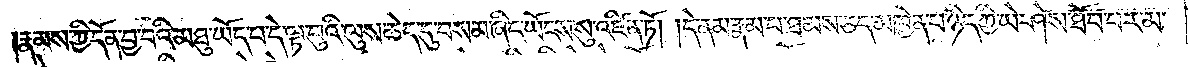རྣམས་ཀྱི་དོན་བྱ་བའི་མཐུ་ཡོད་པ་དེ་ལྟ་བུའི་ལུས་ཆེད་དུ་བསམ་ཤིང་ཡོངས་སུ་འཛིན་ཏོ། །དེ་ནམ་རྣམ་པ་ཐམས་ཅད་མཁྱེན་པ་ཉིད་ཀྱི་ཡེ་ཤེས་ཐོབ་པར་མ་
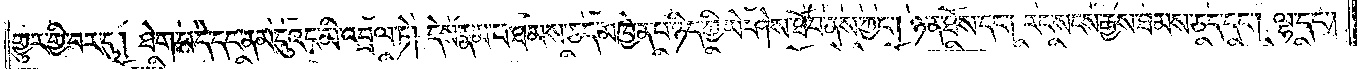གྱུར་གྱི་བར་དུ། ཐེག་པ་དེ་དང་ནམ་དུའང་མི་འབྲལ་ཏེ། དེས་རྣམ་པ་ཐམས་ཅད་མཁྱེན་པ་ཉིད་ཀྱི་ཡེ་ཤེས་ཐོབ་ནས་ཀྱང༌། ཉན་ཐོས་དང༌། རང་སངས་རྒྱས་ཐམས་ཅད་དང༌། ལྷ་དང༌།
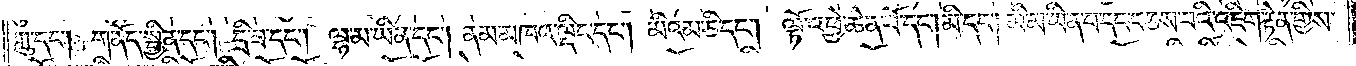ཀླུ་དང༌། གནོད་སྦྱིན་དང༌། དྲི་ཟ་དང༌། ལྷ་མ་ཡིན་དང༌། ནམ་མཁའ་ལྡིང་དང༌། མི་འམ་ཅི་དང༌། ལྟོ་འཕྱེ་ཆེན་པོ་དང༌། མི་དང༌། མི་མ་ཡིན་པ་དང་བཅས་པའི་འཇིག་རྟེན་གྱིས་
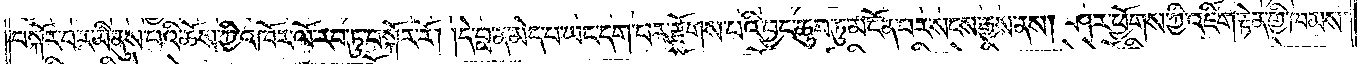བསྐོར་བར་མི་ནུས་པའི་ཆོས་ཀྱི་འཁོར་ལོ་རབ་ཏུ་བསྐོར་རོ། །དེ་བླ་ན་མེད་པ་ཡང་དག་པར་རྫོགས་པའི་བྱང་ཆུབ་ཏུ་མངོན་པར་སངས་རྒྱས་ནས། ཤར་ཕྱོགས་ཀྱི་འཇིག་རྟེན་གྱི་ཁམས་
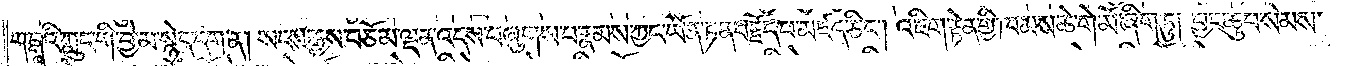གངྒཱའི་ཀླུང་གི་བྱེ་མ་སྙེད་དག་ན། སངས་རྒྱས་བཅོམ་ལྡན་འདས་བཞུགས་པ་རྣམས་ཀྱང་ཡོན་ཏན་བརྗེད་པ་མཛད་ཅིང༌། འཇིག་རྟེན་གྱི་ཁམས་ཆེ་གེ་མོ་ཞིག་ཏུ། བྱང་ཆུབ་སེམས་
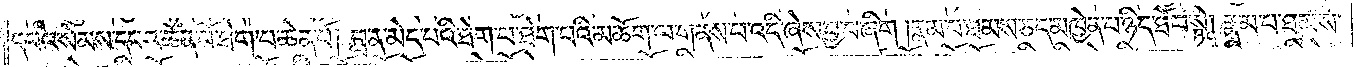དཔའ་སེམས་དཔའ་ཆེན་པོ་ཐེག་པ་ཆེན་པོ། བླ་ན་མེད་པའི་ཐེག་པ་ཐེག་པའི་མཆོག་ལ་གནས་པ་འདི་ཞེས་བྱ་བ་ཞིག །རྣམ་པ་ཐམས་ཅད་མཁྱེན་པ་ཉིད་ཐོབ་སྟེ། རྣམ་པ་ཐམས་
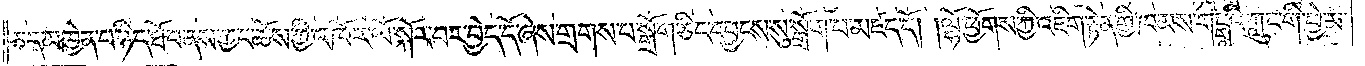ཅད་མཁྱེན་པ་ཉིད་ཐོབ་ནས་ཀྱང་ཆོས་ཀྱི་འཁོར་ལོ་སྐོར་བར་བྱེད་དོ་ཞེས་གྲགས་པ་སྒྲོག་ཅིང་དབྱངས་སུ་སྒྲོག་པ་མཛད་དོ། །ལྷོ་ཕྱོགས་ཀྱི་འཇིག་རྟེན་གྱི་ཁམས་གངྒཱའི་ཀླུང་གི་བྱེ་མ་
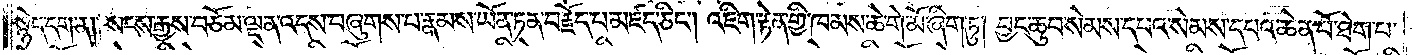སྙེད་དག་ན། སངས་རྒྱས་བཅོམ་ལྡན་འདས་བཞུགས་པ་རྣམས་ཡོན་ཏན་བརྗོད་པ་མཛད་ཅིང༌། འཇིག་རྟེན་གྱི་ཁམས་ཆེ་གེ་མོ་ཞིག་ཏུ། བྱང་ཆུབ་སེམས་དཔའ་སེམས་དཔའ་ཆེན་པོ་ཐེག་པ་
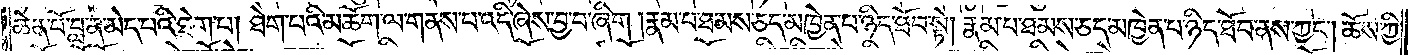ཆེན་པོ་བླ་ན་མེད་པའི་ཐེག་པ། ཐེག་པའི་མཆོག་ལ་གནས་པ་འདི་ཞེས་བྱ་བ་ཞིག །རྣམ་པ་ཐམས་ཅད་མཁྱེན་པ་ཉིད་ཐོབ་སྟེ། རྣམ་པ་ཐམས་ཅད་མཁྱེན་པ་ཉིད་ཐོབ་ནས་ཀྱང༌། ཆོས་ཀྱི་
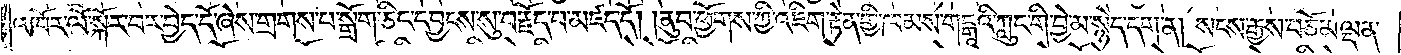འཁོར་ལོ་སྐོར་བར་བྱེད་དོ་ཞེས་གྲགས་པ་སྒྲོག་ཅིང་དབྱངས་སུ་བརྗོད་པ་མཛད་དོ། །ནུབ་ཕྱོགས་ཀྱི་འཇིག་རྟེན་གྱི་ཁམས་གངྒཱའི་ཀླུང་གི་བྱེ་མ་སྙེད་དག་ན། སངས་རྒྱས་བཅོམ་ལྡན་
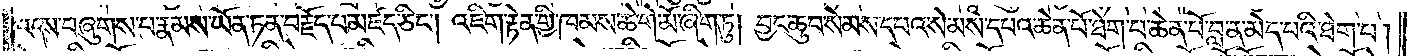འདས་བཞུགས་པ་རྣམས་ཡོན་ཏན་བརྗོད་པ་མཛད་ཅིང༌། འཇིག་རྟེན་གྱི་ཁམས་ཆེ་གེ་མོ་ཞིག་ཏུ། བྱང་ཆུབ་སེམས་དཔའ་སེམས་དཔའ་ཆེན་པོ་ཐེག་པ་ཆེན་པོ་བླ་ན་མེད་པའི་ཐེག་པ།
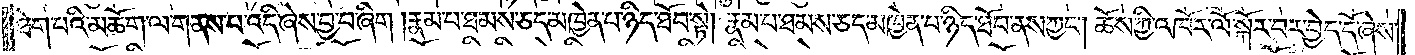ཐེག་པའི་མཆོག་ལ་གནས་པ་འདི་ཞེས་བྱ་བ་ཞིག །རྣམ་པ་ཐམས་ཅད་མཁྱེན་པ་ཉིད་ཐོབ་སྟེ། རྣམ་པ་ཐམས་ཅད་མཁྱེན་པ་ཉིད་ཐོབ་ནས་ཀྱང༌། ཆོས་ཀྱི་འཁོར་ལོ་བསྐོར་བར་བྱེད་དོ་ཞེས་
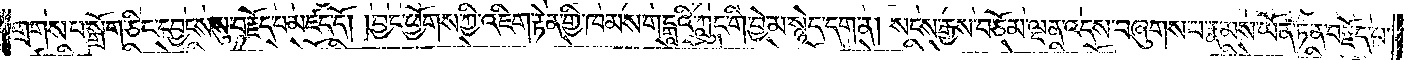གྲགས་པ་སྒྲོག་ཅིང་དབྱངས་སུ་བརྗོད་པ་མཛད་དོ། །བྱང་ཕྱོགས་ཀྱི་འཇིག་རྟེན་གྱི་ཁམས་གངྒཱའི་ཀླུང་གི་བྱེ་མ་སྙེད་དག་ན། སངས་རྒྱས་བཅོམ་ལྡན་འདས་བཞུགས་པ་རྣམས་ཡོན་ཏན་བརྗོད་པ་
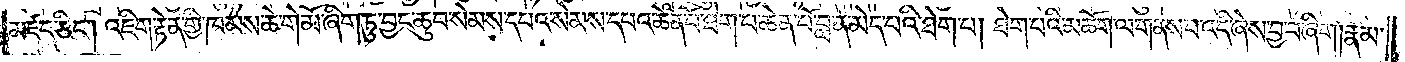མཛད་ཅིང༌། འཇིག་རྟེན་གྱི་ཁམས་ཆེ་གེ་མོ་ཞིག་ཏུ་བྱང་ཆུབ་སེམས་དཔའ་སེམས་དཔའ་ཆེན་པོ་ཐེག་པ་ཆེན་པོ་བླ་ན་མེད་པའི་ཐེག་པ། ཐེག་པའི་མཆོག་ལ་གནས་པ་འདི་ཞེས་བྱ་བ་ཞིག །རྣམ་
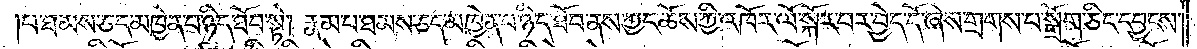པ་ཐམས་ཅད་མཁྱེན་པ་ཉིད་ཐོབ་སྟེ། རྣམ་པ་ཐམས་ཅད་མཁྱེན་པ་ཉིད་ཐོབ་ནས་ཀྱང་ཆོས་ཀྱི་འཁོར་ལོ་བསྐོར་བར་བྱེད་དོ་ཞེས་གྲགས་པ་སྒྲོག་ཅིང་དབྱངས་
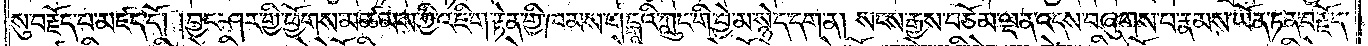སུ་བརྗོད་པ་མཛད་དོ། །བྱང་ཤར་གྱི་ཕྱོགས་མཚམས་ཀྱི་འཇིག་རྟེན་གྱི་ཁམས་གངྒཱའི་ཀླུང་གི་བྱེ་མ་སྙེད་དག་ན། སངས་རྒྱས་བཅོམ་ལྡན་འདས་བཞུགས་པ་རྣམས་ཡོན་ཏན་བརྗོད་
